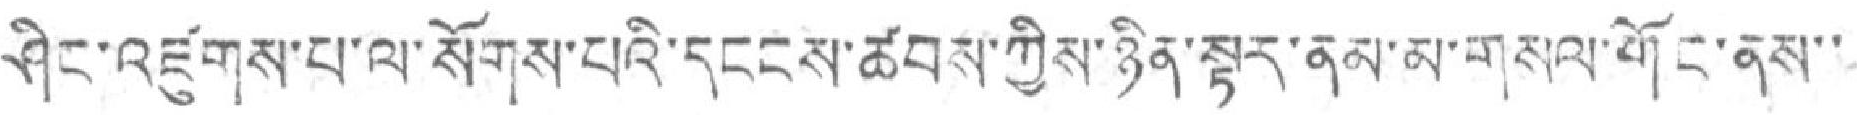ཤིར་འཛུགས་པ་ལ་སོགས་པའི་དངངས་ཚབས་ཀྱིས་ཉིན་སྟར་ནམ་མ་གསལ་གོང་ནས་་
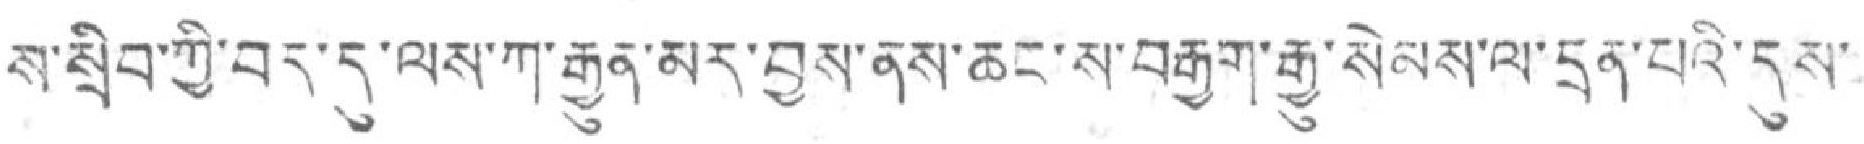ས་སྲིབ་ཀྱི་བར་དུ་ལས་ཀ་རྒྱུན་མར་བྱས་ནས་ཆང་ས་བརྒྱག་རྒྱུ་སེམས་ལ་དྲན་པའི་དུས་
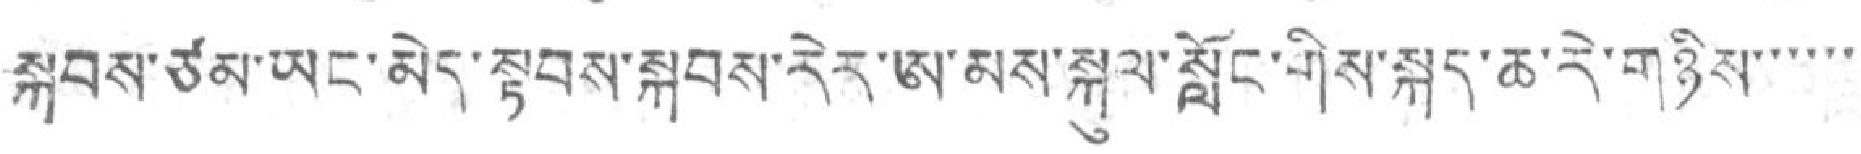སྐབས་ཙམ་ཡང་མེད་སྟབས་སྐབས་རེར་ཨ་མས་སྐུལ་སློང་གིས་སྐད་ཆ་དེ་གཉིས་་་་་་
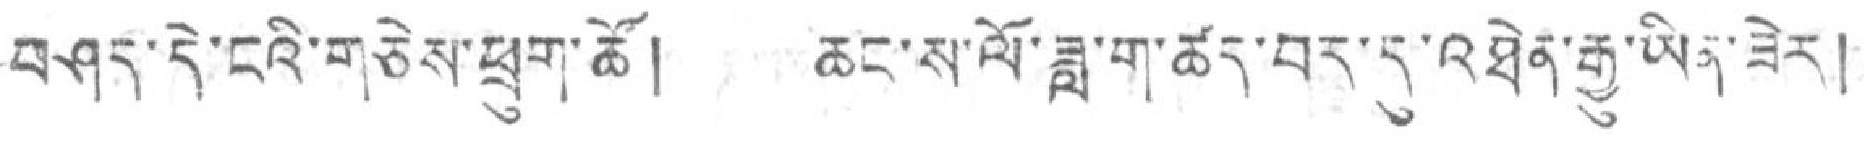བཤད་དེ་ངའི་གཅེས་ཕྲུག་ཚོ། ཆང་ས་ལོ་ཟླ་ག་ཚད་བར་དུ་འཐེན་རྒྱུ་ཡིན་ཟེར།
